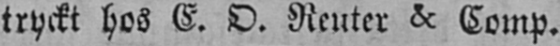tryckt hos E. O. Reuter & Comp.
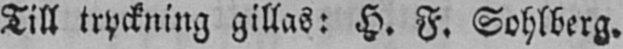Till tryckning gillas: H. F. Sohlberg.
